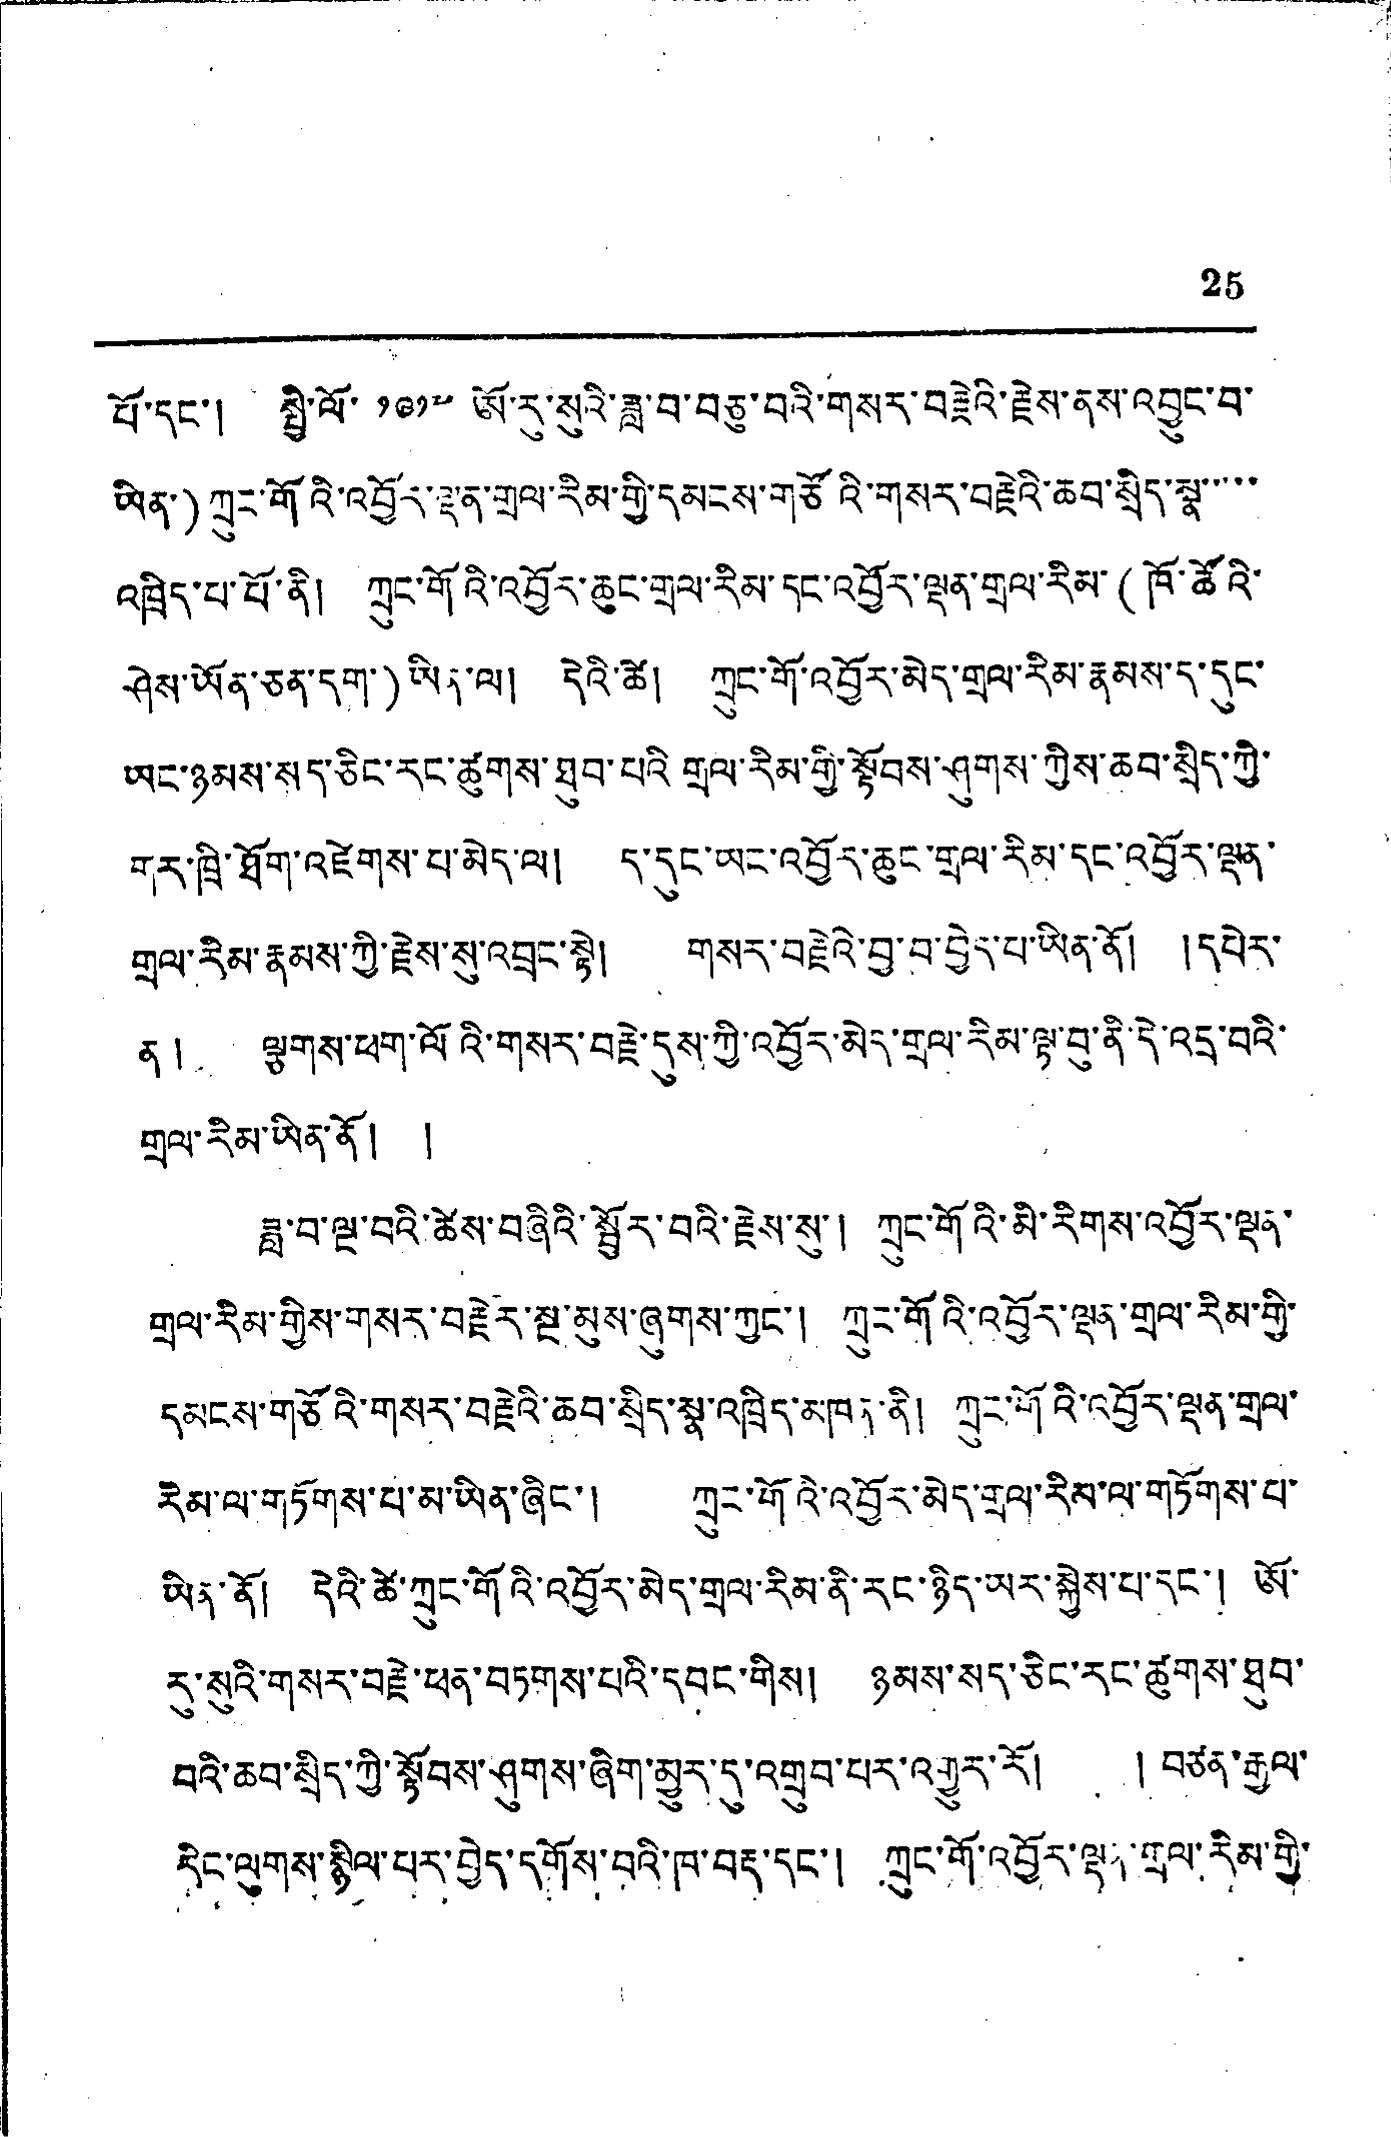25
པོ་དང་། སྤྱི་ལོ་ ༡༩༡༧ ཨོ་རུ་སུའི་ཟླ་བ་བཅུ་བའི་གསར་བརྗེའི་རྗེས་ནས་འབྱུང་བ་
ཡིན་)ཀྲུང་གོའི་འབྱོར་ལྡན་གྲལ་རིམ་གྱི་དམངས་གཙོའི་གསར་བརྗེའི་ཆབ་སྲིད་སྣ་་་་་
འཁྲིད་པ་པོ་ནི། ཀྲུང་གོའི་འབྱོར་ཆུང་གྲལ་རིམ་དང་འབྱོར་ལྡན་གྲལ་རིམ་(ཁོ་ཚོའི་
ཤེས་ཡོན་ཅན་དག་)ཡིན་ལ། དེའི་ཚེ། ཀྲུང་གོ་འབྱོར་མེད་གྲལ་རིམ་རྣམས་ད་དུང་
ཡང་ཉམས་སད་ཅིང་རང་ཚུགས་ཐུབ་པའི་གྲལ་རིམ་གྱི་སྟོབས་ཤུགས་ཀྱིས་ཆབ་སྲིད་ཀྱི་
གར་ཁྲི་ཐོག་འཛེགས་པ་མེད་ལ། ད་དུང་ཡང་འབྱོར་ཆུང་གྲལ་རིམ་དང་འབྱོར་ལྡན་
གྲལ་རིམ་རྣམས་ཀྱི་རྗེས་སུ་འབྲང་སྟེ། གསར་བརྗེའི་བྱ་བ་བྱེད་པ་ཡིན་ནོ། །དཔེར་
ན། ལྕགས་ཕག་ལོའི་གསར་བརྗེ་དུས་ཀྱི་འབྱོར་མེད་གྲལ་རིམ་ལྟ་བུ་ནི་དེ་འདྲ་བའི་
གྲལ་རིམ་ཡིན་ནོ། །
ཟླ་བ་ལྔ་བའི་ཚེས་བཞིའི་སྦྱོར་བའི་རྗེས་སུ་། ཀྲུང་གོའི་མི་རིགས་འབྱོར་ལྡན་
གྲལ་རིམ་གྱིས་གསར་བརྗེར་སྔ་མུས་ཞུགས་ཀྱང་། ཀྲུང་གོའི་འབྱོར་ལྡན་གྲལ་རིམ་གྱི་
དམངས་གཙོའི་གསར་བརྗེའི་ཆབ་སྲིད་སྣ་འཁྲིད་མཁན་ནི། ཀྲུང་གོའི་འབྱོར་ལྡན་གྲལ་
རིམ་ལ་གཏོགས་པ་མ་ཡིན་ཞིང་། ཀྲུང་གོའི་འབྱོར་མེད་གྲལ་རིམ་ལ་གཏོགས་པ་
ཡིན་ནོ། དེའི་ཚེ་ཀྲུང་གོའི་འབྱོར་མེད་གྲལ་རིམ་ནི་རང་ཉིད་ཡར་སྐྱེས་པ་དང་། ཨོ་
རུ་སུའི་གསར་བརྗེ་ཕན་བཏགས་པའི་དབང་གིས། ཉམས་སད་ཅིང་རང་ཚུགས་ཐུབ་
བའི་ཆབ་སྲིད་ཀྱི་སྟོབས་ཤུགས་ཞིག་མྱུར་དུ་འགྲུབ་པར་འགྱུར་རོ། ། བཙན་རྒྱལ་
རིང་ལུགས་སྙིལ་པར་བྱེད་དགོས་བའི་ཁ་བརྡ་དང་། ཀྲུང་གོ་འབྱོར་ལྡན་གྲལ་རིམ་གྱི་
